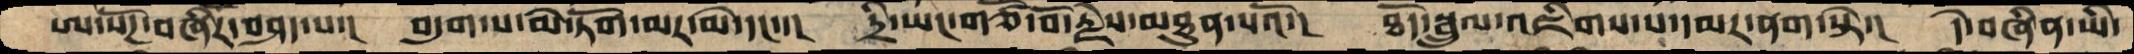ཨ་སོཌ་བཞིར་བཤད་པ་།  བདུག་པ་མེ་ཏོག་མར་མེ་དང་་།  དྲི་ཡང་གཙོ་བོ་རྗེས་མཐུན་པའོ་།  ཐོད་སྦྲུལ་འཇིགས་པ་དམར་ནག་སྟེ་།  དེ་བཞིན་ཡི་
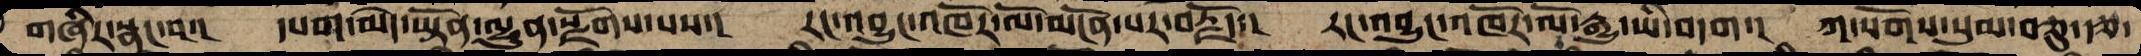གཞིར་སྣང་བ་།  དཔག་མེད་ཡྟོན་ལྷུན་སྫོགས་པས་།  རང་འབྱུང་འཁོར་ལོ་མངོན་པར་བརྗོད་།  རང་འབྱུང་འཁོར་ལོ་རྒྱུ་ཡི་བདག་།  ཀ་སོགས་སུམ་བཅུ་རྩ་
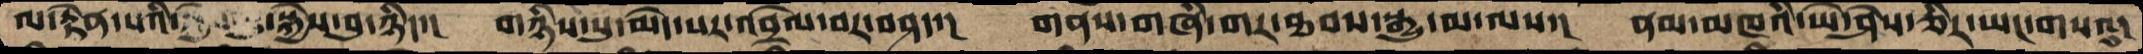ལ་རྟེན་སའི་  སྐྱེས་བུ་ཉིད་།  གཉིས་སུ་མེད་པར་འབྲེལ་བར་བཤད་།  གནས་གཞི་གར་ཐབས་སྒྱུ་མ་ལས་།  ནམ་མཁའི་ཡེ་ཤེས་ཅིར་ཡང་གསའུ་
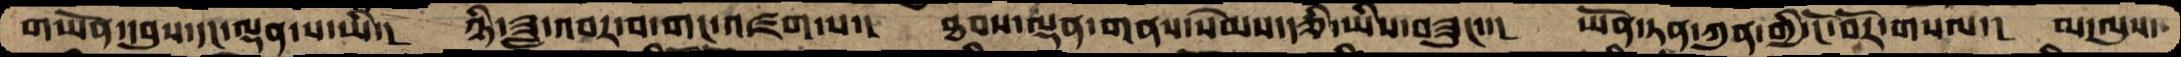གཡོན་དབུས་དང་ལྡན་པ་ཡི་།  ཉི་ཟླ་འབར་བ་གང་འཛག་པ་།  ཐབས་ལྡན་གནས་སེམས་རྩི་ཡིས་བཟུང་་།  ཡོན་ཏན་ཀུན་གྱི་ངོ་བོར་གསལ་།  མ་ལུས་
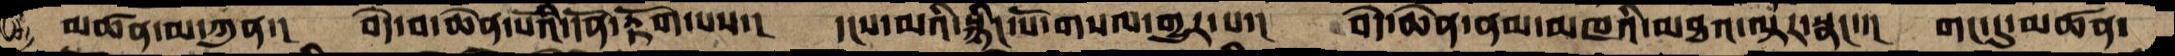མཚན་མ་ཀུན་།  བདེ་བ་ཆེན་པོའི་དོན་རྟོག་པས་།  དངས་མའི་སྙིང་པོ་གསལ་གྱུར་པ་།  བདེ་ཆེན་ནམ་མཁའི་མཐའ་ལྟར་སྣང་་།  གང་དུ་མཚན་
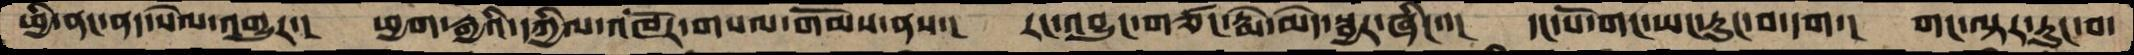ཕྱི་ནང་ནད་སེལ་འགྱུར་།  ཕྱག་རྒྱའི་དཀྱིལ་འཁོར་གསལ་གོམས་ནས་།  རང་འབྱུང་གཙང་རྨེ་མེད་སྦྱར་ཞིང་་།  དང་པོ་གང་ཡང་རུང་བ་དག་།  གང་ལྟར་རུང་བ་
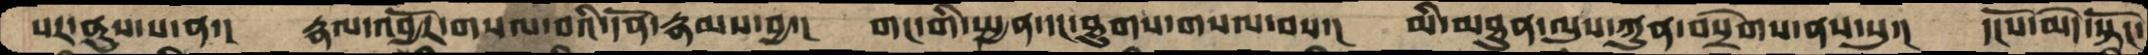པར་ནུས་པ་ན་།  རྣལ་འབྱོར་གསལ་བའི་དོན་རྣམས་བྱ་།  གང་གི་སྤྱན་དང་ཐུགས་གསལ་བས་།  མི་མཐུན་ལུས་ཀུན་བསྲེག་ནས་སུ་།  དངོས་མེད་སྟོང་
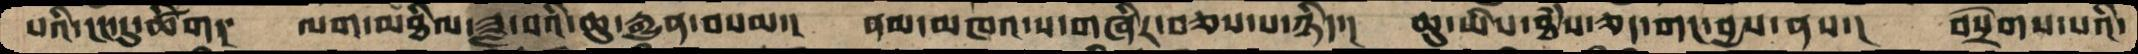པའི་ངང་དུ་ཚིག།  ལག་མཐིལ་ཟླ་བའི་ཆུ་རྒྱུན་བསམ་།  ནམ་མཁའ་ས་གཞིར་བཅས་པ་ཉིད་།  ཆུ་ཡིས་ཐྃས་ཅད་གང་བྱས་ནས་།  བསྲེགས་པའི་
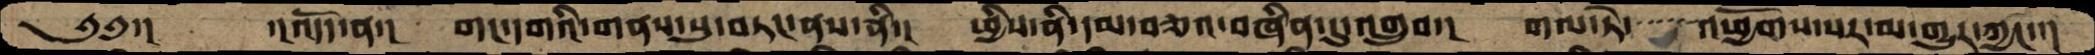༄༅་།    ་།འདོད་ན་།  གང་དགའི་གནས་སུ་བཏང་ནས་ནི་།  ཕྱིས་ནི་དམ་བཅའ་བཞིན་དུ་འགྲུབ་།  གལ་ཏེ་་་་་འཕྱོགས་པར་མ་གྱུར་ཀྱང་་།
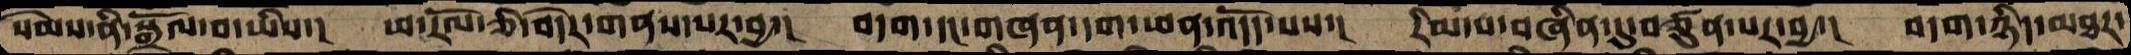སེམས་ནི་སྒྲོལ་བ་ཡིས་།  ཕ་རོལ་ཅི་བདེར་གནས་པར་བྱ་།  བདག་དང་གཞན་དག་ཕན་འདོད་པས་།  རིམ་པ་བཞིན་དུ་བཙུན་པར་བྱ་།  བདག་ཉིད་མཐར་
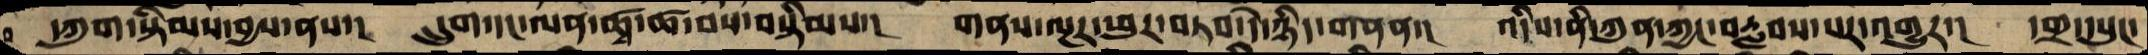དཀུག་སྟིམས་བྱས་ནས་།  དྲུག་དང་ལན་ཚྭ་ཚ་བས་བསྟིམས་།  གནས་ལྔར་ཕུར་བཏབ་དེ་ཉིད་གནན་།  འདིས་ནི་ཀུན་ཀྱང་བརླབས་པར་འགྱུར་།  དགྲ་དཔུང་
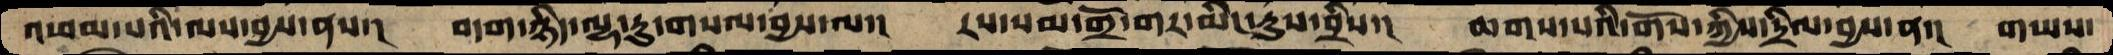འཕམ་པའི་ལས་བྱས་ནས་།   བདག་ཉིད་ལྷ་རུ་གསལ་བྱས་ལ་།  རས་སམ་གྲོ་གར་མིང་རུས་བྲིས་།  ཆགས་པའི་གོས་ཀྱིས་དྲིལ་བྱས་ན་།  གཡས་
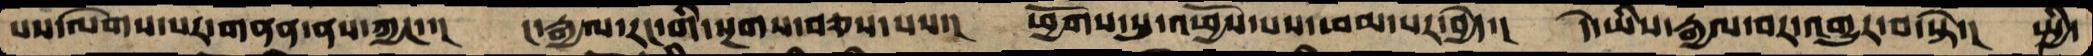པས་ལེགས་པར་གནན་ནས་ཀྱང་་།  ང་རྒྱལ་རང་གི་སྔགས་བཅས་པས་།  ཕྱོགས་སུ་འཕྱོས་པས་ཕམ་པར་བྱེད་།  དེ་ཡིས་རྒྱལ་བར་འགྱུར་བ་སྟེ་།  སྤྱི་
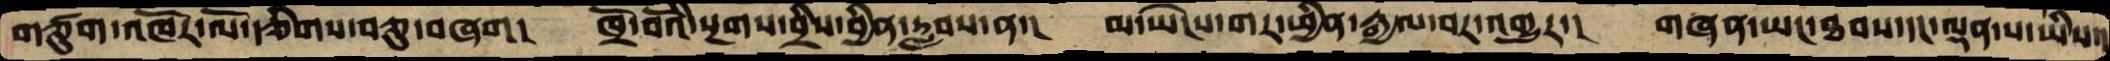གཙུག་འཁོར་ལོ་རྩིགས་བཅུ་བཞག།  ཁྲོ་བོའི་སྔགས་བྲིས་བྱིན་རླབས་ན་།  མ་ཡེངས་གར་ཕྱིན་རྒྱལ་བར་འགྱུར་།  གཞན་ཡང་ཐབས་དང་ལྡན་པ་ཡིས་།
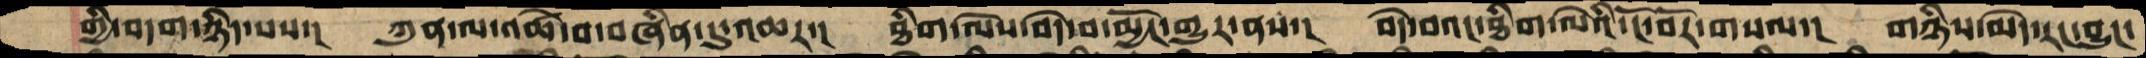གྱི་བདག་ཉིད་པས་།  ཀུན་ལ་འཚེ་བ་བཞིན་དུ་འཆར་།  ཐིག་ལེས་བདེ་བ་མྱོང་གྱུར་ནས་།  བདེ་བའང་ཐིག་ལེའི་ངོ་བོར་གསལ་།  གཉིས་མེད་རང་བྱུང་
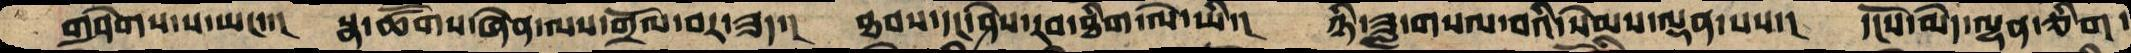གཤེགས་པ་ཡང་་།  སྣ་ཚོགས་ཞེན་ལས་གྲོལ་བར་ཟད་།  ཐབས་དང་ཤེས་རབ་ཐིག་ལེ་ཡི་།  ཉི་ཟླ་གསལ་བའི་སེམས་ལྡན་པས་།  དངོས་མེད་ལྡན་ཅིག་
